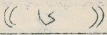((༦ ))
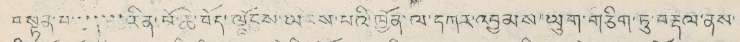བསྟན་པ་་་་་་་རིན་པོ་ཆེ་བོད་ལྗོངས་ཡངས་པའི་ཁྱོན་ལ་དཀར་འབྱམས་ཡུག་གཅིག་ཏུ་བརྡུལ་ནས་
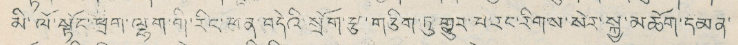མི་ལོ་སྟོང་ཕྲག་ལྷག་གི་རིང་ཕན་བདེའི་སྲོག་རྩ་གཅིག་ཏུ་གྱུར་པ་རང་རིགས་སེར་སྐྱ་མཆོག་དམན་
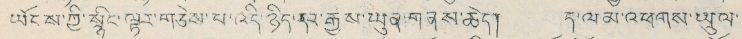ཡོངས་ཀྱི་སྙིང་ལྟར་གཅེས་པ་འདི་ཉིད་དར་རྒྱས་ཡུན་གནས་ཆེད། ད་ལམ་འཕགས་ཡུལ་
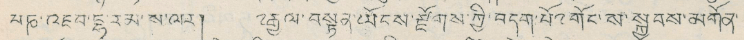ལཎ་འཇབ་དྷ་རམ་ས་ལར། ༸རྒྱལ་བསྟན་ཡོངས་རྫོགས་ཀྱི་བདག་པོ་༸གོང་ས་སྐྱབས་མགོན་
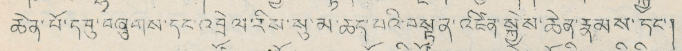ཆེན་པོ་དབུ་བཞུགས་དང་འབྲེལ་རིས་སུ་མ་ཆད་པའི་བསྟན་འཛིན་སྐྱེས་ཆེན་རྣམས་དང་།
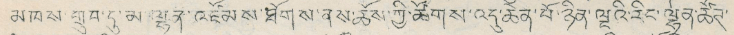མཁས་གྲུབ་དུ་མ་ལྷན་འཛོམས་ཐོགས་ནས་ཆོས་ཀྱི་ཚོགས་འདུ་ཆེན་པོ་ཉིན་ལྔའི་རིང་ལྷན་ཚོཊ་
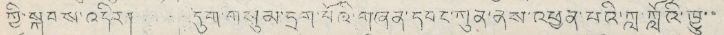ཀྱི་སྐབས་འདིར། དུག་གསུམ་དྲག་པོའི་གཞན་དབང་ཀུན་ནས་འཕྱན་པའི་ཀླ་ཀློའི་ཁྱུ་་
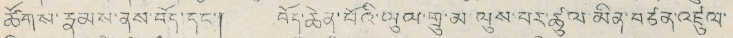ཚོགས་རྣམས་ནས་བོད་དང་། བོད་ཆེན་པོའི་ཡུལ་གྲུ་མ་ལུས་པར་ཚུལ་མིན་བཙན་འཛུལ་
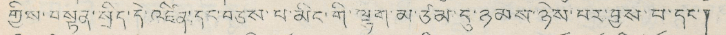གྱིས་བསྟན་སྲིད་དེ་འཛིན་དང་བཅས་པ་མིང་གི་ལྷག་མ་ཙམ་དུ་ཉམས་ཉེས་པར་བྱས་པ་དང་།
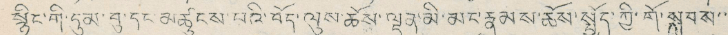སྙིང་གི་ཏུམ་བུ་དང་མཚུངས་པའི་བོད་ལུས་ཆོས་ལྡན་མི་མང་རྣམས་ཆོས་སྤྱོད་ཀྱི་གོ་སྐབས་་
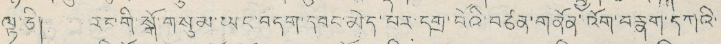ལྟ་ཅི། རང་གི་སྒོ་གསུམ་ཡང་བདག་དབང་མེད་པར་དགྲ་བོའི་བཙན་གནོན་འོག་བརྣག་དཀའི་
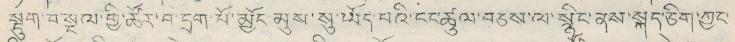སྦུག་བསྔལ་གྱི་ཚོར་བ་དྲག་པོ་མྱོང་མུས་སུ་ཡོད་པའི་ངང་ཚུལ་བཅས་ལ་སྙིང་ནས་སྐད་ཅིག་ཀྱང་
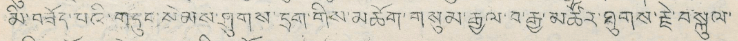མི་བཟོད་པའི་གདུང་སེམས་ཤུགས་དྲག་གིས་མཆོག་གསུམ་རྒྱལ་བ་རྒྱ་མཚོའི་ཐུགས་རྗེ་བསྐུལ་
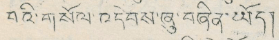བའི་གསོལ་འདེབས་ཞུ་བཞིན་ཡོད།
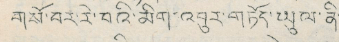གསོ་བར་རེ་བའི་མིག་འབུར་གཏོད་ཡུལ་ནི།
